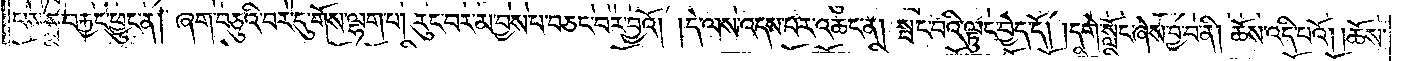པས་སྲ་བརྐྱང་ཕྱུང་ན། ཞག་བཅུའི་བར་དུ་གོས་ལྷག་པ། རུང་བར་མ་བྱས་པ་བཅང་བར་བྱའོ། །དེ་ལས་འདས་པར་འཆང་ན། སྤང་བའི་ལྟུང་བྱེད་དོ། །དགེ་སློང་ཞེས་བྱ་བ་ནི། ཆོས་འདི་པའོ། །ཆོས་
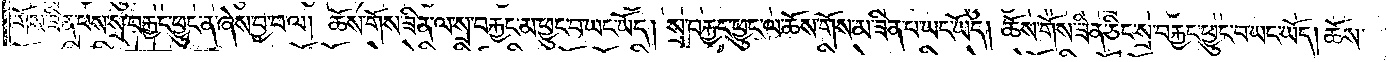གོས་ཟིན་པས་སྲ་བརྐྱང་ཕྱུང་ན་ཞེས་བྱ་བ་ལ། ཆོས་གོས་ཟིན་ལ་སྲ་བརྐྱང་མ་ཕྱུང་བ་ཡང་ཡོད། སྲ་བརྐྱང་ཕྱུང་ལ་ཆོས་གོས་མ་ཟིན་པ་ཡང་ཡོད། ཆོས་གོས་ཟིན་ཅིང་སྲ་བརྐྱང་ཕྱུང་བ་ཡང་ཡོད། ཆོས་
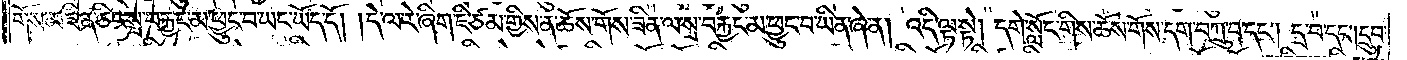གོས་མ་ཟིན་ཅིང་སྲ་བརྐྱང་མ་ཕྱུང་བ་ཡང་ཡོད་དོ། །དེ་ལ་རེ་ཞིག་ཇི་ཙམ་གྱིས་ན་ཆོས་གོས་ཟིན་ལ་སྲ་བརྐྱང་མ་ཕྱུང་བ་ཡིན་ཞེ་ན། འདི་ལྟ་སྟེ། དགེ་སློང་གིས་ཆོས་གོས་དག་བཀྲུ་བ་དང༌། དྲ་བ་དང༌། དྲུབ་
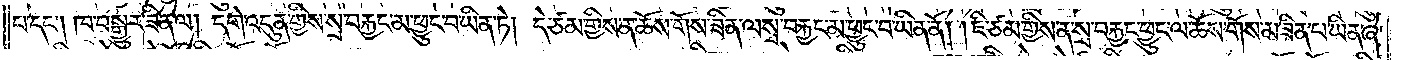པ་དང༌། ཁ་བསྒྱུར་ཟིན་ལ། དགེ་འདུན་གྱིས་སྲ་བརྐྱང་མ་ཕྱུང་བ་ཡིན་ཏེ། དེ་ཙམ་གྱིས་ན་ཆོས་གོས་ཟིན་ལ་སྲ་བརྐྱང་མ་ཕྱུང་བ་ཡིན་ནོ། །ཇི་ཙམ་གྱིས་ན་སྲ་བརྐྱང་ཕྱུང་ལ་ཆོས་གོས་མ་ཟིན་པ་ཡིན་ཞེ་
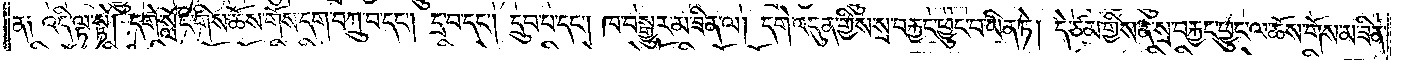ན༑འདི་ལྟ་སྟེ། དགེ་སློང་གིས་ཆོས་གོས་དག་བཀྲུ་བ་དང༌། དྲ་བ་དང༌། དྲུབ་པ་དང༌། ཁ་བསྒྱུར་མ་ཟིན་ལ། དགེ་འདུན་གྱིས་སྲ་བརྐྱང་ཕྱུང་བ་ཡིན་ཏེ། དེ་ཙམ་གྱིས་ན་སྲ་བརྐྱང་ཕྱུང་ལ་ཆོས་གོས་མ་ཟིན་
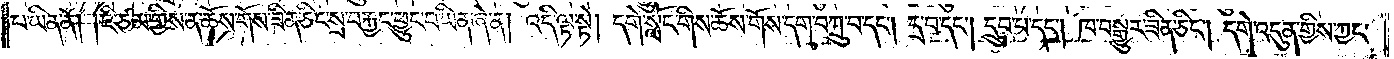པ་ཡིན་ནོ། །ཇི་ཙམ་གྱིས་ན་ཆོས་གོས་ཟིན་ཅིང་སྲ་བརྐྱང་ཕྱུང་བ་ཡིན་ཞེ་ན། འདི་ལྟ་སྟེ། དགེ་སློང་གིས་ཆོས་གོས་དག་བཀྲུ་བ་དང༌། དྲ་བ་དང༌། དྲུབ་པ་དང༌། ཁ་བསྒྱུར་ཟིན་ཅིང༌། དགེ་འདུན་གྱིས་ཀྱང་
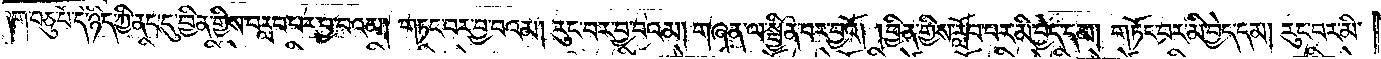ཞག་བཅུ་པོ་དེ་ཉིད་ཀྱི་ནང་དུ་བྱིན་གྱིས་བརླབ་པར་བྱ་བའམ། གཏང་བར་བྱ་བའམ། རུང་བར་བྱ་བའམ། གཞན་ལ་སྦྱིན་པར་བྱའོ། །བྱིན་གྱིས་རློབ་པར་མི་བྱེད་དམ། གཏོང་བར་མི་བྱེད་དམ། རུང་བར་མི་
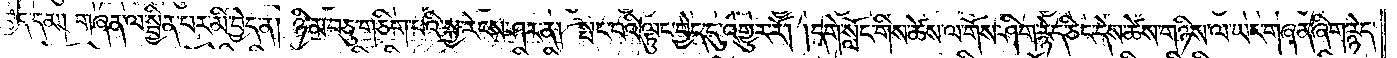བྱེད་དམ། གཞན་ལ་སྦྱིན་པར་མི་བྱེད་ན། ཉི་མ་བཅུ་གཅིག་པའི་སྐྱ་རེངས་ཤར་ན། སྤང་པའི་ལྟུང་བྱེད་དུ་འགྱུར་རོ། །དགེ་སློང་གིས་ཚེས་ལ་གོས་ཤིག་རྙེད་ཅིང་དེས་ཚེས་གཉིས་ལ་ཡང་གཞན་ཞིག་རྙེད་
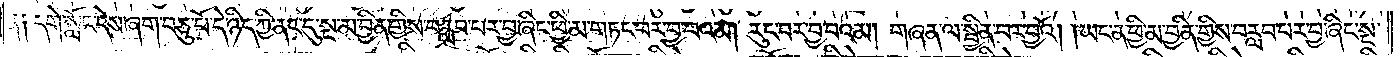ན༑ དགེ་སློང་དེས་ཞག་བཅུ་པོ་དེ་ཉིད་ཀྱི་ནང་དུ་སྔ་མ་བྱིན་གྱིས་བརླབ་པར་བྱ་ཞིང་ཕྱི་མ་གཏང་བར་བྱ་བའམ། རུང་བར་བྱ་བའམ། གཞན་ལ་སྦྱིན་པར་བྱའོ། །ཡང་ན་ཕྱི་མ་བྱིན་གྱིས་བརླབ་པར་བྱ་ཞིང་སྔ་
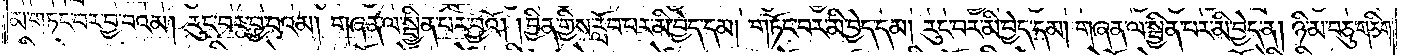མ་གཏང་བར་བྱ་བའམ། རུང་བར་བྱ་བའམ། གཞན་ལ་སྦྱིན་པར་བྱའོ། །བྱིན་གྱིས་རློབ་པར་མི་བྱེད་དམ། གཏོང་བར་མི་བྱེད་དམ། རུང་བར་མི་བྱེད་དམ། གཞན་ལ་སྦྱིན་པར་མི་བྱེད་ན། ཉི་མ་བཅུ་གཅིག་
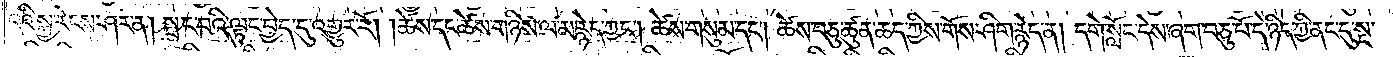པའི་སྐྱ་རེངས་ཤར་ན། སྤང་བའི་ལྟུང་བྱེད་དུ་འགྱུར་རོ། །ཚེས་དང་ཚེས་གཉིས་ལ་མ་རྙེད་ཀྱང༌། ཚེས་གསུམ་དང༌། ཚེས་བཅུ་ཚུན་ཆད་ཀྱིས་གོས་ཤིག་རྙེད་ན། དགེ་སློང་དེས་ཞག་བཅུ་པོ་དེ་ཉིད་ཀྱི་ནང་དུ་སྔ་
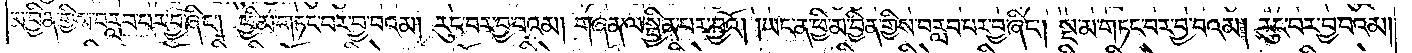མ་བྱིན་གྱིས་བརླབ་པར་བྱ་ཞིང༌། ཕྱི་མ་གཏང་བར་བྱ་བའམ། རུང་བར་བྱ་བའམ། གཞན་ལ་སྦྱིན་པར་བྱའོ། །ཡང་ན་ཕྱི་མ་བྱིན་གྱིས་བརླབ་པར་བྱ་ཞིང༌། སྔ་མ་གཏང་བར་བྱ་བའམ། རུང་བར་བྱ་བའམ།
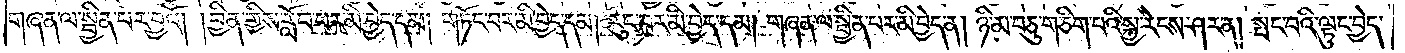གཞན་ལ་སྦྱིན་པར་བྱའོ། །བྱིན་གྱིས་རློབ་པར་མི་བྱེད་དམ། གཏོང་བར་མི་བྱེད་དམ། རུང་བར་མི་བྱེད་དམ། གཞན་ལ་སྦྱིན་པར་མི་བྱེད་ན། ཉི་མ་བཅུ་གཅིག་པའི་སྐྱ་རེངས་ཤར་ན། སྤང་བའི་ལྟུང་བྱེད་
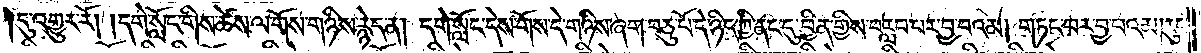དུ་འགྱུར་རོ། །དགེ་སློང་གིས་ཚེས་ལ་གོས་གཉིས་རྙེད་ན། དགེ་སློང་དེས་གོས་དེ་གཉིས་ཞག་བཅུ་པོ་དེ་ཉིད་ཀྱི་ནང་དུ་བྱིན་གྱིས་བརླབ་པར་བྱ་བའམ། གཏང་བར་བྱ་བའམ། རུང་
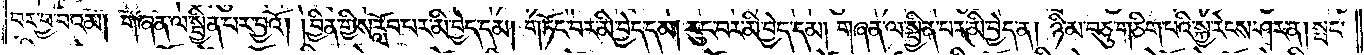བར་བྱ་བའམ། གཞན་ལ་སྦྱིན་པར་བྱའོ། །བྱིན་གྱིས་རློབ་པར་མི་བྱེད་དམ། གཏོང་བར་མི་བྱེད་དམ། རུང་བར་མི་བྱེད་དམ། གཞན་ལ་སྦྱིན་པར་མི་བྱེད་ན། ཉི་མ་བཅུ་གཅིག་པའི་སྐྱ་རེངས་ཤར་ན། སྤང་
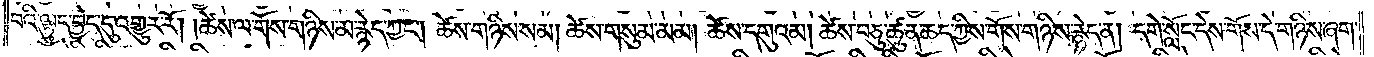བའི་ལྟུང་བྱེད་དུ་འགྱུར་རོ། །ཚེས་ལ་གོས་གཉིས་མ་རྙེད་ཀྱང༌། ཚེས་གཉིས་སམ། ཚེས་གསུམ་མམ། ཚེས་དགུའམ། ཚེས་བཅུ་ཚུན་ཆད་ཀྱིས་གོས་གཉིས་རྙེད་ན། དགེ་སློང་དེས་གོས་དེ་གཉིས་ཞག་
